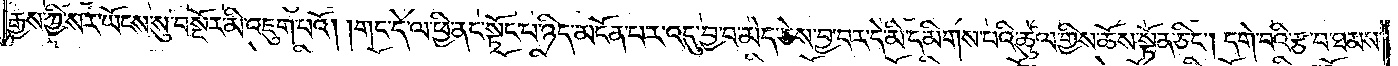རྒྱས་ཀྱི་སར་ཡོངས་སུ་བསྔོར་མི་འཇུག་པའོ། །གང་དེ་ལ་ཕྱི་ནང་སྟོང་པ་ཉིད་མངོན་པར་འདུ་བྱ་བ་མེད་ཅེས་བྱ་བར་དེ་མི་དམིགས་པའི་ཚུལ་གྱིས་ཆོས་སྟོན་ཅིང༌། དགེ་བའི་རྩ་བ་ཐམས་
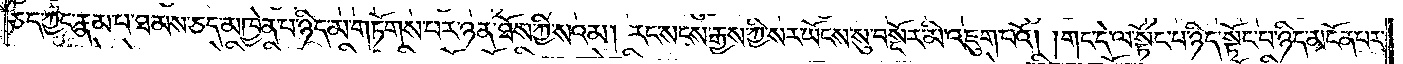ཅད་ཀྱང་རྣམ་པ་ཐམས་ཅད་མཁྱེན་པ་ཉིད་མ་གཏོགས་པར་ཉན་ཐོས་ཀྱི་སའམ། རང་སངས་རྒྱས་ཀྱི་སར་ཡོངས་སུ་བསྔོར་མི་འཇུག་པའོ། །གང་དེ་ལ་སྟོང་པ་ཉིད་སྟོང་པ་ཉིད་མངོན་པར་
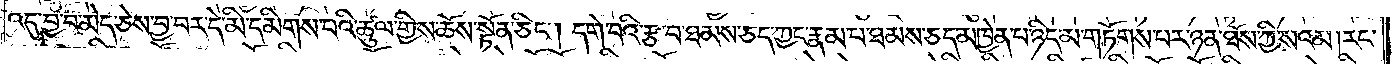འདུ་བྱ་བ་མེད་ཅེས་བྱ་བར་དེ་མི་དམིགས་པའི་ཚུལ་གྱིས་ཆོས་སྟོན་ཅིང༌། དགེ་བའི་རྩ་བ་ཐམས་ཅད་ཀྱང་རྣམ་པ་ཐམས་ཅད་མཁྱེན་པ་ཉིད་མ་གཏོགས་པར་ཉན་ཐོས་ཀྱི་སའམ། རང་
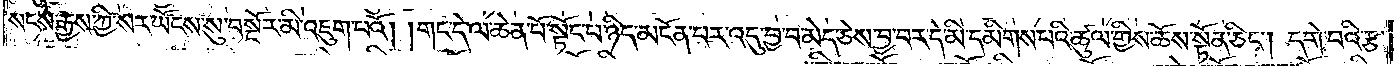སངས་རྒྱས་ཀྱི་སར་ཡོངས་སུ་བསྔོར་མི་འཇུག་པའོ། །གང་དེ་ལ་ཆེན་པོ་སྟོང་པ་ཉིད་མངོན་པར་འདུ་བྱ་བ་མེད་ཅེས་བྱ་བར་དེ་མི་དམིགས་པའི་ཚུལ་གྱིས་ཆོས་སྟོན་ཅིང༌། དགེ་བའི་རྩ་
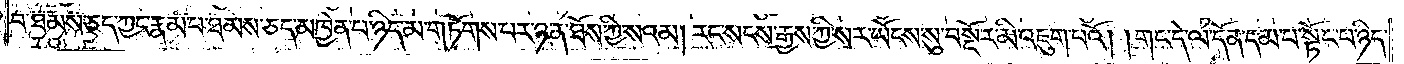བ་ཐམས་ཅད་ཀྱང་རྣམ་པ་ཐམས་ཅད་མཁྱེན་པ་ཉིད་མ་གཏོགས་པར་ཉན་ཐོས་ཀྱི་སའམ། རང་སངས་རྒྱས་ཀྱི་སར་ཡོངས་སུ་བསྔོར་མི་འཇུག་པའོ། །གང་དེ་ལ་དོན་དམ་པ་སྟོང་པ་ཉིད་
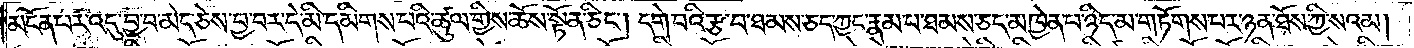མངོན་པར་འདུ་བྱ་བ་མེད་ཅེས་བྱ་བར་དེ་མི་དམིགས་པའི་ཚུལ་གྱིས་ཆོས་སྟོན་ཅིང༌། དགེ་བའི་རྩ་བ་ཐམས་ཅད་ཀྱང་རྣམ་པ་ཐམས་ཅད་མཁྱེན་པ་ཉིད་མ་གཏོགས་པར་ཉན་ཐོས་ཀྱི་སའམ།
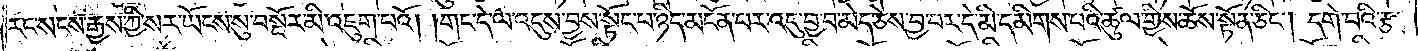རང་སངས་རྒྱས་ཀྱི་སར་ཡོངས་སུ་བསྔོར་མི་འཇུག་པའོ། །གང་དེ་ལ་འདུས་བྱས་སྟོང་པ་ཉིད་མངོན་པར་འདུ་བྱ་བ་མེད་ཅེས་བྱ་བར་དེ་མི་དམིགས་པའི་ཚུལ་གྱིས་ཆོས་སྟོན་ཅིང༌། དགེ་བའི་རྩ་
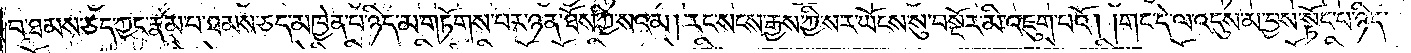བ་ཐམས་ཅད་ཀྱང་རྣམ་པ་ཐམས་ཅད་མཁྱེན་པ་ཉིད་མ་གཏོགས་པར་ཉན་ཐོས་ཀྱི་སའམ། རང་སངས་རྒྱས་ཀྱི་སར་ཡོངས་སུ་བསྔོར་མི་འཇུག་པའོ། །གང་དེ་ལ་འདུས་མ་བྱས་སྟོང་པ་ཉིད་
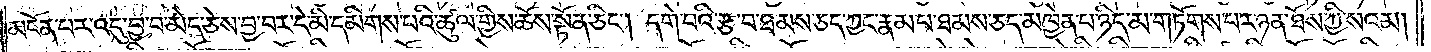མངོན་པར་འདུ་བྱ་བ་མེད་ཅེས་བྱ་བར་དེ་མི་དམིགས་པའི་ཚུལ་གྱིས་ཆོས་སྟོན་ཅིང༌། དགེ་བའི་རྩ་བ་ཐམས་ཅད་ཀྱང་རྣམ་པ་ཐམས་ཅད་མཁྱེན་པ་ཉིད་མ་གཏོགས་པར་ཉན་ཐོས་ཀྱི་སའམ།
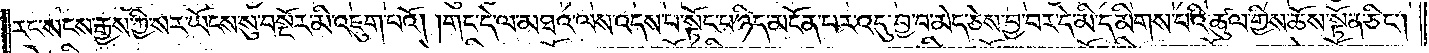རང་སངས་རྒྱས་ཀྱི་སར་ཡོངས་སུ་བསྔོར་མི་འཇུག་པའོ། །གང་དེ་ལ་མཐའ་ལས་འདས་པ་སྟོང་པ་ཉིད་མངོན་པར་འདུ་བྱ་བ་མེད་ཅེས་བྱ་བར་དེ་མི་དམིགས་པའི་ཚུལ་གྱིས་ཆོས་སྟོན་ཅིང༌།
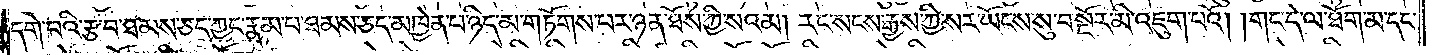དགེ་བའི་རྩ་བ་ཐམས་ཅད་ཀྱང་རྣམ་པ་ཐམས་ཅད་མཁྱེན་པ་ཉིད་མ་གཏོགས་པར་ཉན་ཐོས་ཀྱི་སའམ། རང་སངས་རྒྱས་ཀྱི་སར་ཡོངས་སུ་བསྔོར་མི་འཇུག་པའོ། །གང་དེ་ལ་ཐོག་མ་དང་
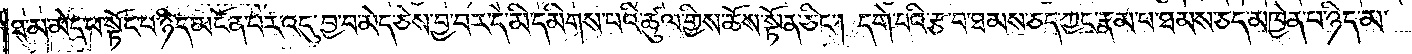ཐ་མ་མེད་པ་སྟོང་པ་ཉིད་མངོན་པར་འདུ་བྱ་བ་མེད་ཅེས་བྱ་བར་དེ་མི་དམིགས་པའི་ཚུལ་གྱིས་ཆོས་སྟོན་ཅིང༌། དགེ་བའི་རྩ་བ་ཐམས་ཅད་ཀྱང་རྣམ་པ་ཐམས་ཅད་མཁྱེན་པ་ཉིད་མ་
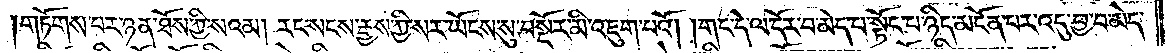གཏོགས་པར་ཉན་ཐོས་ཀྱི་སའམ། རང་སངས་རྒྱས་ཀྱི་སར་ཡོངས་སུ་བསྔོར་མི་འཇུག་པའོ། །གང་དེ་ལ་དོར་བ་མེད་པ་སྟོང་པ་ཉིད་མངོན་པར་འདུ་བྱ་བ་མེད་
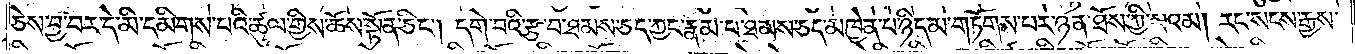ཅེས་བྱ་བར་དེ་མི་དམིགས་པའི་ཚུལ་གྱིས་ཆོས་སྟོན་ཅིང༌། དགེ་བའི་རྩ་བ་ཐམས་ཅད་ཀྱང་རྣམ་པ་ཐམས་ཅད་མཁྱེན་པ་ཉིད་མ་གཏོགས་པར་ཉན་ཐོས་ཀྱི་སའམ། རང་སངས་རྒྱས་
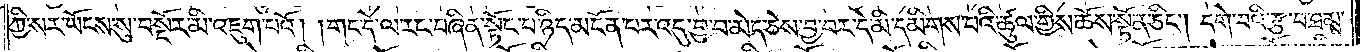ཀྱི་སར་ཡོངས་སུ་བསྔོར་མི་འཇུག་པའོ། །གང་དེ་ལ་རང་བཞིན་སྟོང་པ་ཉིད་མངོན་པར་འདུ་བྱ་བ་མེད་ཅེས་བྱ་བར་དེ་མི་དམིགས་པའི་ཚུལ་གྱིས་ཆོས་སྟོན་ཅིང༌། དགེ་བའི་རྩ་བ་ཐམས་
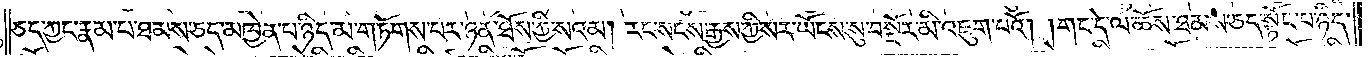ཅད་ཀྱང་རྣམ་པ་ཐམས་ཅད་མཁྱེན་པ་ཉིད་མ་གཏོགས་པར་ཉན་ཐོས་ཀྱི་སའམ། རང་སངས་རྒྱས་ཀྱི་སར་ཡོངས་སུ་བསྔོར་མི་འཇུག་པའོ། །གང་དེ་ལ་ཆོས་ཐམས་ཅད་སྟོང་པ་ཉིད་
